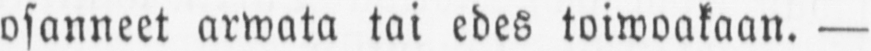osanneet arwata tai edes toiwoakaan. —
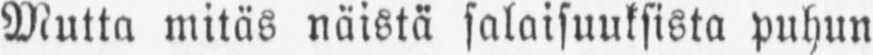Mutta mitäs näistä salaisuuksista puhun
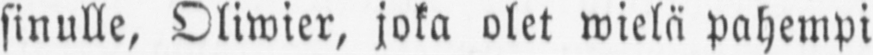sinulle, Oliwier, joka olet wielä pahempi
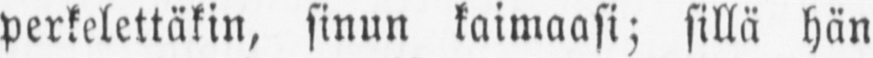perkelettäkin, sinun kaimaasi; sillä hän
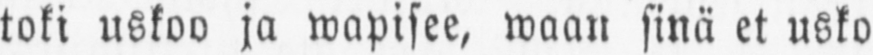toki uskoo ja wapisee, waan sinä et usko
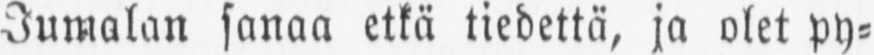Jumalan sanaa etkä tiedettä, ja olet py-
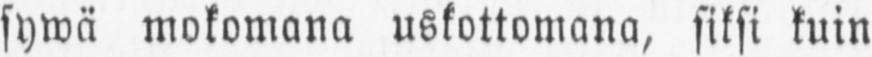sywä mokomana uskottomana, siksi kuin
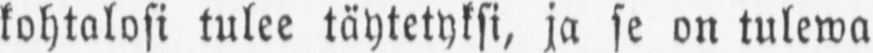kohtalosi tulee täytetyksi, ja se on tulewa
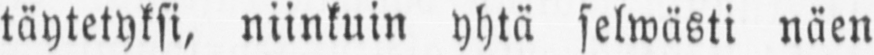täytetyksi, niinkuin yhtä selwästi näen
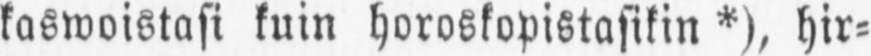kaswoistasi kuin horoskopistasikin *), hir-
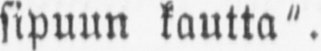sipuun kautta".
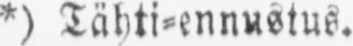*) Tähti-ennustus.
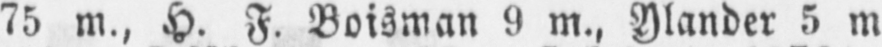75 m., H. F. Boisman 9 m., Alander 5 m
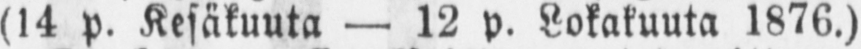(14 p. Kesäkuuta — 12 p. Lokakuuta 1876.)
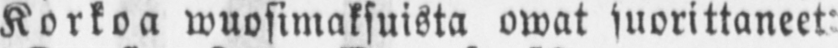Korkoa wuosimaksuista owat suorittaneet:
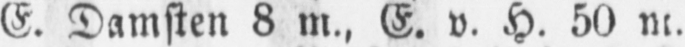E. Damsten 8 m.. E. v. H. 50 m.
